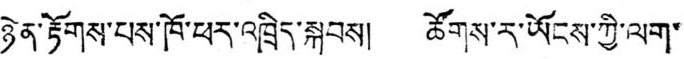ཉེན་རྟོགས་པས་ཁོ་ཕར་འཁྲིད་སྐབས། ཚོགས་ར་ཡོངས་ཀྱི་ལག་
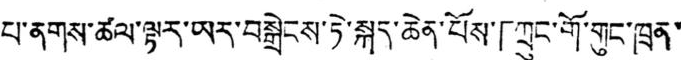པ་ནགས་ཚལ་ལྟར་ཡར་བསྒྲེངས་ཏེ་སྐད་ཆེན་པོས་「ཀྲུང་གོ་གུང་ཁྲན་
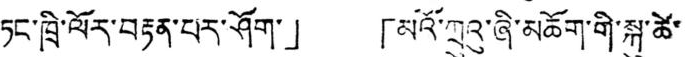ཏང་ཁྲི་ལོར་བརྟན་པར་ཤོག་」 「མའོ་ཀྲུའུ་ཞི་མཆོག་གི་སྐུ་ཚེ་
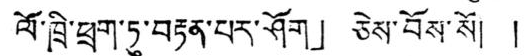ལོ་ཁྲི་ཕྲག་ཏུ་བརྟན་པར་ཤོག」 ཅེས་བོས་སོ། །
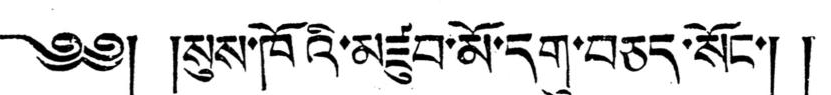༄༅། །སུས་ཁོའི་མཛུབ་མོ་དགུ་བཅད་སོང་། །
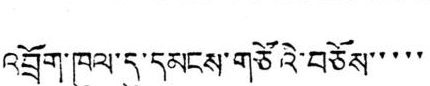འབྲོག་ཁུལ་དུ་དམངས་གཙོའི་བཅོས་་་་་
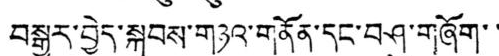བསྒྱུར་བྱེད་སྐབས་གཉའ་གནོན་དང་བཤུ་གཞོག་་
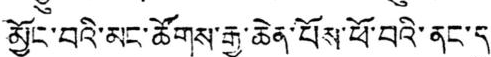མྱོང་བའི་མང་ཚོགས་རྒྱ་ཆེན་པོས་ཕོ་བའི་ནང་དུ་
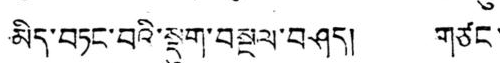མིད་བཏང་བའི་སྡུག་བསྔལ་བཤད། གཙང་
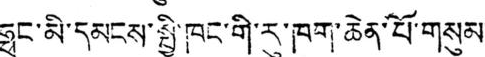ཧྥུང་མི་དམངས་སྤྱི་ཁང་གི་རུ་ཁག་ཆེན་པོ་གསུམ་
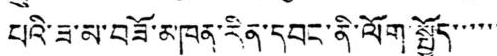པའི་ཟ་མ་བཟོ་མཁན་རིན་དབང་ནི་ལོག་སྤྱོད་་་་་་
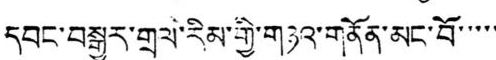དབང་བསྒྱུར་གྲལ་རིམ་གྱི་གཉའ་གནོན་མང་བོ་་་་་
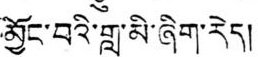མྱོང་བའི་གླ་མི་ཞིག་རེད།
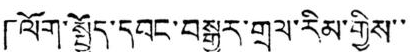「ལོག་སྤྱོད་དབང་བསྒྱུར་གྲལ་རིམ་གྱིས་་་
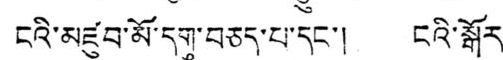ངའི་མཛུབ་མོ་དགུ་བཅད་པ་དང་། ངའི་སྒོར་
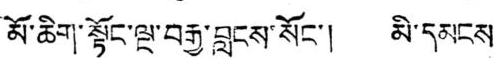མོ་ཆིག་སྟོང་ལྔ་བརྒྱ་བླངས་སོང་། མི་དམངས་
